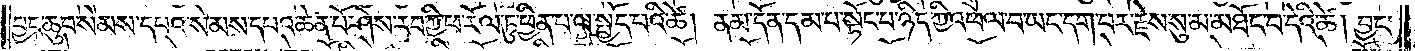བྱང་ཆུབ་སེམས་དཔའ་སེམས་དཔའ་ཆེན་པོ་ཤེས་རབ་ཀྱི་ཕ་རོལ་ཏུ་ཕྱིན་པ་ལ་སྤྱོད་པའི་ཚེ། ནམ་དོན་དམ་པ་སྟོང་པ་ཉིད་ཀྱི་འཕེལ་བ་ཡང་དག་པར་རྗེས་སུ་མ་མཐོང་བ་དེའི་ཚེ། བྱང་
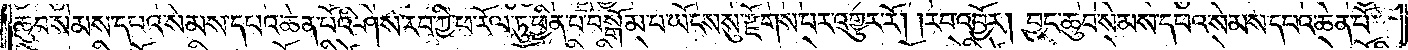ཆུབ་སེམས་དཔའ་སེམས་དཔའ་ཆེན་པོའི་ཤེས་རབ་ཀྱི་ཕ་རོལ་ཏུ་ཕྱིན་པ་བསྒོམ་པ་ཡོངས་སུ་རྫོགས་པར་འགྱུར་རོ། །རབ་འབྱོར། བྱང་ཆུབ་སེམས་དཔའ་སེམས་དཔའ་ཆེན་པོ་
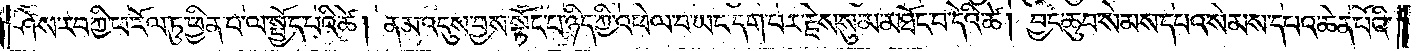ཤེས་རབ་ཀྱི་ཕ་རོལ་ཏུ་ཕྱིན་པ་ལ་སྤྱོད་པའི་ཚེ། ནམ་འདུས་བྱས་སྟོང་པ་ཉིད་ཀྱི་འཕེལ་བ་ཡང་དག་པར་རྗེས་སུ་མ་མཐོང་བ་དེའི་ཚེ། བྱང་ཆུབ་སེམས་དཔའ་སེམས་དཔའ་ཆེན་པོའི་
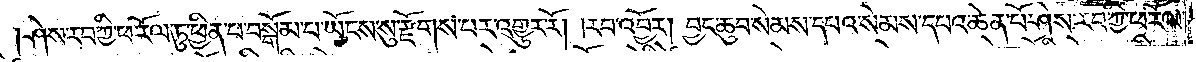ཤེས་རབ་ཀྱི་ཕ་རོལ་ཏུ་ཕྱིན་པ་བསྒོམ་པ་ཡོངས་སུ་རྫོགས་པར་འགྱུར་རོ། །རབ་འབྱོར། བྱང་ཆུབ་སེམས་དཔའ་སེམས་དཔའ་ཆེན་པོ་ཤེས་རབ་ཀྱི་ཕ་རོལ་
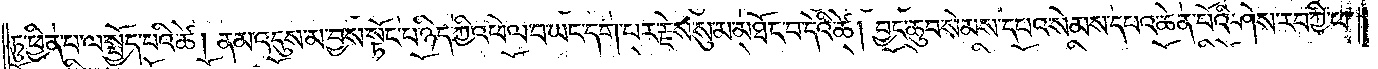ཏུ་ཕྱིན་པ་ལ་སྤྱོད་པའི་ཚེ། ནམ་འདུས་མ་བྱས་སྟོང་པ་ཉིད་ཀྱི་འཕེལ་བ་ཡང་དག་པར་རྗེས་སུ་མ་མཐོང་བ་དེའི་ཚེ། བྱང་ཆུབ་སེམས་དཔའ་སེམས་དཔའ་ཆེན་པོའི་ཤེས་རབ་ཀྱི་ཕ་
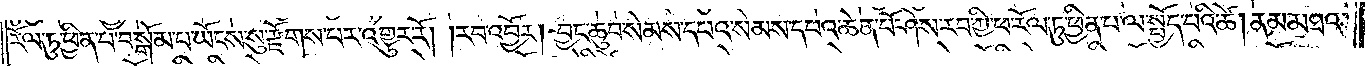རོལ་ཏུ་ཕྱིན་པ་བསྒོམ་པ་ཡོངས་སུ་རྫོགས་པར་འགྱུར་རོ། །རབ་འབྱོར། བྱང་ཆུབ་སེམས་དཔའ་སེམས་དཔའ་ཆེན་པོ་ཤེས་རབ་ཀྱི་ཕ་རོལ་ཏུ་ཕྱིན་པ་ལ་སྤྱོད་པའི་ཚེ། ནམ་མཐའ་
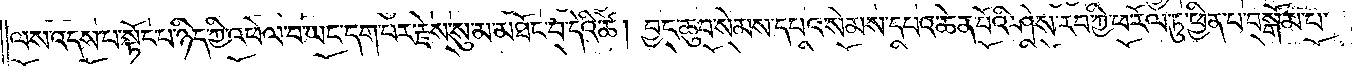ལས་འདས་པ་སྟོང་པ་ཉིད་ཀྱི་འཕེལ་བ་ཡང་དག་པར་རྗེས་སུ་མ་མཐོང་བ་དེའི་ཚེ། བྱང་ཆུབ་སེམས་དཔའ་སེམས་དཔའ་ཆེན་པོའི་ཤེས་རབ་ཀྱི་ཕ་རོལ་ཏུ་ཕྱིན་པ་བསྒོམ་པ་
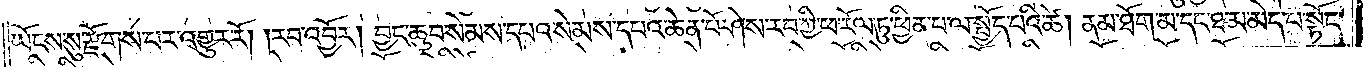ཡོངས་སུ་རྫོགས་པར་འགྱུར་རོ། །རབ་འབྱོར། བྱང་ཆུབ་སེམས་དཔའ་སེམས་དཔའ་ཆེན་པོ་ཤེས་རབ་ཀྱི་ཕ་རོལ་ཏུ་ཕྱིན་པ་ལ་སྤྱོད་པའི་ཚེ། ནམ་ཐོག་མ་དང་ཐ་མ་མེད་པ་སྟོང་
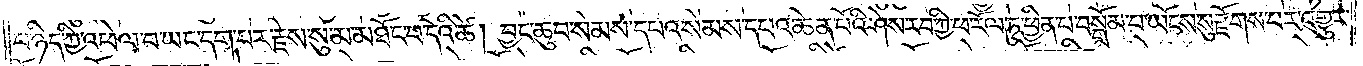པ་ཉིད་ཀྱི་འཕེལ་བ་ཡང་དག་པར་རྗེས་སུ་མ་མཐོང་བ་དེའི་ཚེ། བྱང་ཆུབ་སེམས་དཔའ་སེམས་དཔའ་ཆེན་པོའི་ཤེས་རབ་ཀྱི་ཕ་རོལ་ཏུ་ཕྱིན་པ་བསྒོམ་པ་ཡོངས་སུ་རྫོགས་པར་འགྱུར་
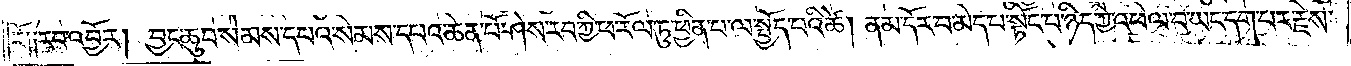རོ༑ ༑རབ་འབྱོར། བྱང་ཆུབ་སེམས་དཔའ་སེམས་དཔའ་ཆེན་པོ་ཤེས་རབ་ཀྱི་ཕ་རོལ་ཏུ་ཕྱིན་པ་ལ་སྤྱོད་པའི་ཚེ། ནམ་དོར་བ་མེད་པ་སྟོང་པ་ཉིད་ཀྱི་འཕེལ་བ་ཡང་དག་པར་རྗེས་
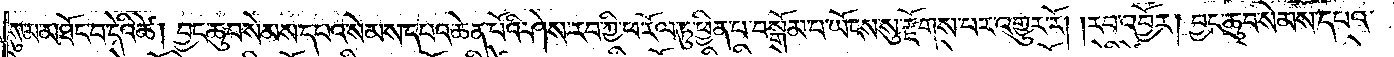སུ་མ་མཐོང་བ་དེའི་ཚེ། བྱང་ཆུབ་སེམས་དཔའ་སེམས་དཔའ་ཆེན་པོའི་ཤེས་རབ་ཀྱི་ཕ་རོལ་ཏུ་ཕྱིན་པ་བསྒོམ་པ་ཡོངས་སུ་རྫོགས་པར་འགྱུར་རོ། །རབ་འབྱོར། བྱང་ཆུབ་སེམས་དཔའ་
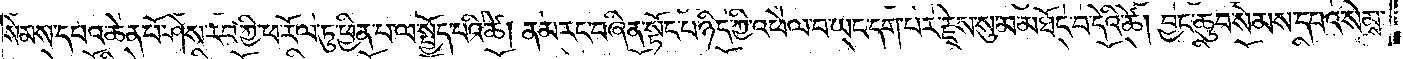སེམས་དཔའ་ཆེན་པོ་ཤེས་རབ་ཀྱི་ཕ་རོལ་ཏུ་ཕྱིན་པ་ལ་སྤྱོད་པའི་ཚེ། ནམ་རང་བཞིན་སྟོང་པ་ཉིད་ཀྱི་འཕེལ་བ་ཡང་དག་པར་རྗེས་སུ་མ་མཐོང་བ་དེའི་ཚེ། བྱང་ཆུབ་སེམས་དཔའ་སེམས་
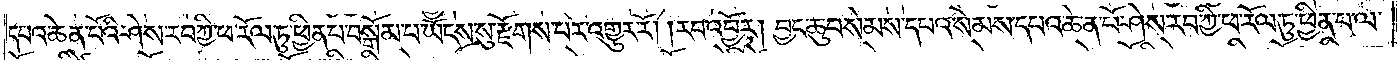དཔའ་ཆེན་པོའི་ཤེས་རབ་ཀྱི་ཕ་རོལ་ཏུ་ཕྱིན་པ་བསྒོམ་པ་ཡོངས་སུ་རྫོགས་པར་འགྱུར་རོ། །རབ་འབྱོར། བྱང་ཆུབ་སེམས་དཔའ་སེམས་དཔའ་ཆེན་པོ་ཤེས་རབ་ཀྱི་ཕ་རོལ་ཏུ་ཕྱིན་པ་ལ་
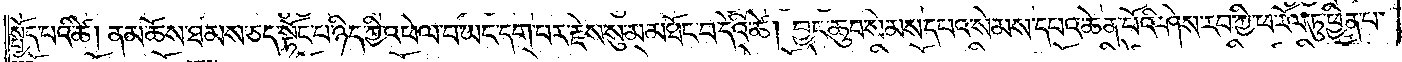སྤྱོད་པའི་ཚེ། ནམ་ཆོས་ཐམས་ཅད་སྟོང་པ་ཉིད་ཀྱི་འཕེལ་བ་ཡང་དག་པར་རྗེས་སུ་མ་མཐོང་བ་དེའི་ཚེ། བྱང་ཆུབ་སེམས་དཔའ་སེམས་དཔའ་ཆེན་པོའི་ཤེས་རབ་ཀྱི་ཕ་རོལ་ཏུ་ཕྱིན་པ་
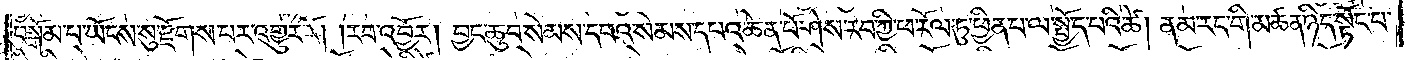བསྒོམ་པ་ཡོངས་སུ་རྫོགས་པར་འགྱུར་རོ། །རབ་འབྱོར། བྱང་ཆུབ་སེམས་དཔའ་སེམས་དཔའ་ཆེན་པོ་ཤེས་རབ་ཀྱི་ཕ་རོལ་ཏུ་ཕྱིན་པ་ལ་སྤྱོད་པའི་ཚེ། ནམ་རང་གི་མཚན་ཉིད་སྟོང་པ་
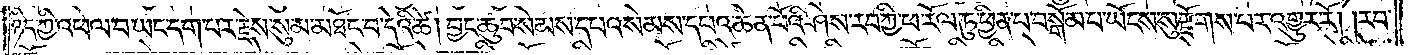ཉིད་ཀྱི་འཕེལ་བ་ཡང་དག་པར་རྗེས་སུ་མ་མཐོང་བ་དེའི་ཚེ། བྱང་ཆུབ་སེམས་དཔའ་སེམས་དཔའ་ཆེན་པོའི་ཤེས་རབ་ཀྱི་ཕ་རོལ་ཏུ་ཕྱིན་པ་བསྒོམ་པ་ཡོངས་སུ་རྫོགས་པར་འགྱུར་རོ། །རབ་
